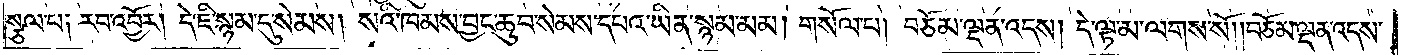སྩལ་པ༑ རབ་འབྱོར། དེ་ཇི་སྙམ་དུ་སེམས། སའི་ཁམས་བྱང་ཆུབ་སེམས་དཔའ་ཡིན་སྙམ་མམ། གསོལ་པ། བཅོམ་ལྡན་འདས། དེ་ལྟ་མ་ལགས་སོ། །བཅོམ་ལྡན་འདས་
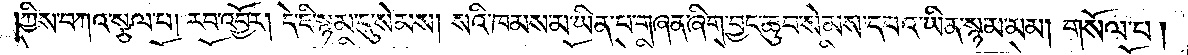ཀྱིས་བཀའ་སྩལ་པ། རབ་འབྱོར། དེ་ཇི་སྙམ་དུ་སེམས། སའི་ཁམས་མ་ཡིན་པ་གཞན་ཞིག་བྱང་ཆུབ་སེམས་དཔའ་ཡིན་སྙམ་མམ། གསོལ་པ།
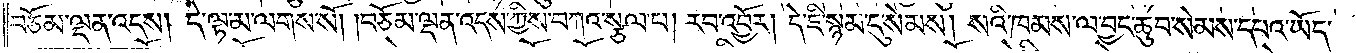བཅོམ་ལྡན་འདས། དེ་ལྟ་མ་ལགས་སོ། །བཅོམ་ལྡན་འདས་ཀྱིས་བཀའ་སྩལ་པ། རབ་འབྱོར། དེ་ཇི་སྙམ་དུ་སེམས། སའི་ཁམས་ལ་བྱང་ཆུབ་སེམས་དཔའ་ཡོད་
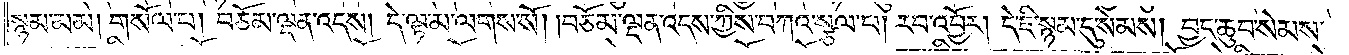སྙམ་མམ། གསོལ་པ། བཅོམ་ལྡན་འདས། དེ་ལྟ་མ་ལགས་སོ། །བཅོམ་ལྡན་འདས་ཀྱིས་བཀའ་སྩལ་པ། རབ་འབྱོར། དེ་ཇི་སྙམ་དུ་སེམས། བྱང་ཆུབ་སེམས་
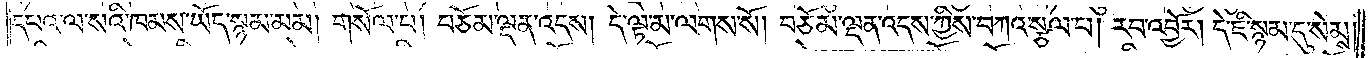དཔའ་ལ་སའི་ཁམས་ཡོད་སྙམ་མམ། གསོལ་པ། བཅོམ་ལྡན་འདས། དེ་ལྟ་མ་ལགས་སོ། བཅོམ་ལྡན་འདས་ཀྱིས་བཀའ་སྩལ་པ། རབ་འབྱོར། དེ་ཇི་སྙམ་དུ་སེམས།
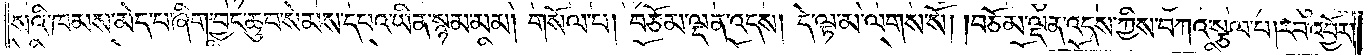སའི་ཁམས་མེད་པ་ཞིག་བྱང་ཆུབ་སེམས་དཔའ་ཡིན་སྙམ་མམ། གསོལ་པ། བཅོམ་ལྡན་འདས། དེ་ལྟ་མ་ལགས་སོ། །བཅོམ་ལྡན་འདས་ཀྱིས་བཀའ་སྩལ་པ། རབ་འབྱོར།
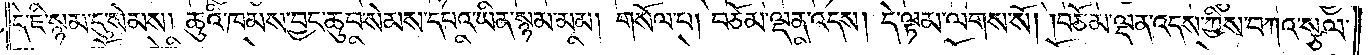དེ་ཇི་སྙམ་དུ་སེམས། ཆུའི་ཁམས་བྱང་ཆུབ་སེམས་དཔའ་ཡིན་སྙམ་མམ། གསོལ་པ། བཅོམ་ལྡན་འདས། དེ་ལྟ་མ་ལགས་སོ། །བཅོམ་ལྡན་འདས་ཀྱིས་བཀའ་སྩལ་
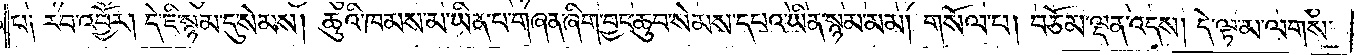པ༑ རབ་འབྱོར། དེ་ཇི་སྙམ་དུ་སེམས། ཆུའི་ཁམས་མ་ཡིན་པ་གཞན་ཞིག་བྱང་ཆུབ་སེམས་དཔའ་ཡིན་སྙམ་མམ། གསོལ་པ། བཅོམ་ལྡན་འདས། དེ་ལྟ་མ་ལགས་
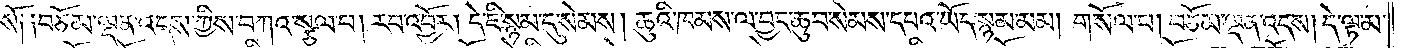སོ༑ ༑བཅོམ་ལྡན་འདས་ཀྱིས་བཀའ་སྩལ་པ། རབ་འབྱོར། དེ་ཇི་སྙམ་དུ་སེམས། ཆུའི་ཁམས་ལ་བྱང་ཆུབ་སེམས་དཔའ་ཡོད་སྙམ་མམ། གསོལ་པ། བཅོམ་ལྡན་འདས། དེ་ལྟ་མ་
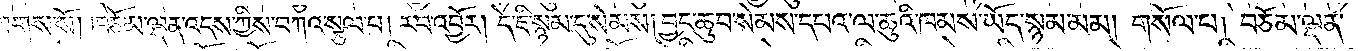ལགས་སོ། །བཅོམ་ལྡན་འདས་ཀྱིས་བཀའ་སྩལ་པ། རབ་འབྱོར། དེ་ཇི་སྙམ་དུ་སེམས། བྱང་ཆུབ་སེམས་དཔའ་ལ་ཆུའི་ཁམས་ཡོད་སྙམ་མམ། གསོལ་པ། བཅོམ་ལྡན་
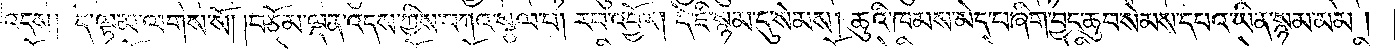འདས། དེ་ལྟ་མ་ལགས་སོ། །བཅོམ་ལྡན་འདས་ཀྱིས་བཀའ་སྩལ་པ། རབ་འབྱོར། དེ་ཇི་སྙམ་དུ་སེམས། ཆུའི་ཁམས་མེད་པ་ཞིག་བྱང་ཆུབ་སེམས་དཔའ་ཡིན་སྙམ་མམ།
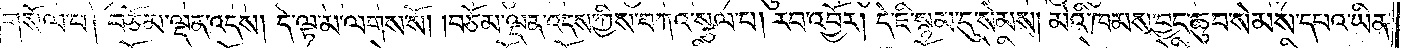གསོལ་པ། བཅོམ་ལྡན་འདས། དེ་ལྟ་མ་ལགས་སོ། །བཅོམ་ལྡན་འདས་ཀྱིས་བཀའ་སྩལ་པ། རབ་འབྱོར། དེ་ཇི་སྙམ་དུ་སེམས། མེའི་ཁམས་བྱང་ཆུབ་སེམས་དཔའ་ཡིན་
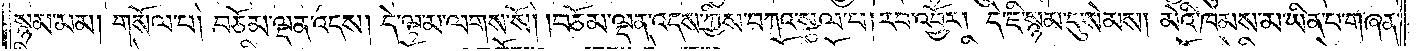སྙམ་མམ། གསོལ་པ། བཅོམ་ལྡན་འདས། དེ་ལྟ་མ་ལགས་སོ། །བཅོམ་ལྡན་འདས་ཀྱིས་བཀའ་སྩལ་པ། རབ་འབྱོར། དེ་ཇི་སྙམ་དུ་སེམས། མེའི་ཁམས་མ་ཡིན་པ་གཞན་
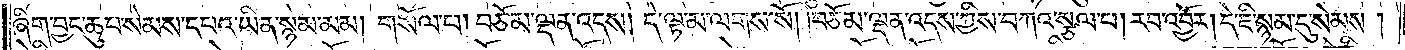ཞིག་བྱང་ཆུབ་སེམས་དཔའ་ཡིན་སྙམ་མམ། གསོལ་པ། བཅོམ་ལྡན་འདས། དེ་ལྟ་མ་ལགས་སོ། །བཅོམ་ལྡན་འདས་ཀྱིས་བཀའ་སྩལ་པ། རབ་འབྱོར། དེ་ཇི་སྙམ་དུ་སེམས་།
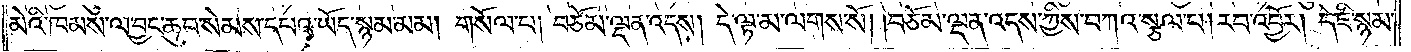མེའི་ཁམས་ལ་བྱང་ཆུབ་སེམས་དཔའ་ཡོད་སྙམ་མམ། གསོལ་པ། བཅོམ་ལྡན་འདས། དེ་ལྟ་མ་ལགས་སོ། །བཅོམ་ལྡན་འདས་ཀྱིས་བཀའ་སྩལ་པ། རབ་འབྱོར། དེ་ཇི་སྙམ་
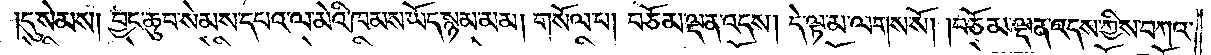དུ་སེམས། བྱང་ཆུབ་སེམས་དཔའ་ལ་མེའི་ཁམས་ཡོད་སྙམ་མམ། གསོལ་པ། བཅོམ་ལྡན་འདས། དེ་ལྟ་མ་ལགས་སོ། །བཅོམ་ལྡན་འདས་ཀྱིས་བཀའ་
